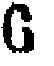6
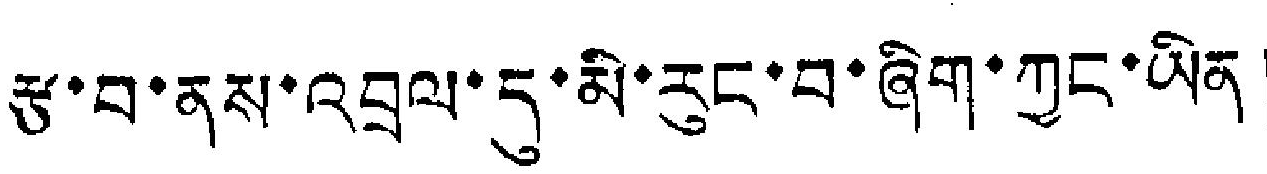རྩ་བ་ནས་འབྲལ་དུ་མི་རུང་བ་ཞིག་ཀྱང་ཡིན།
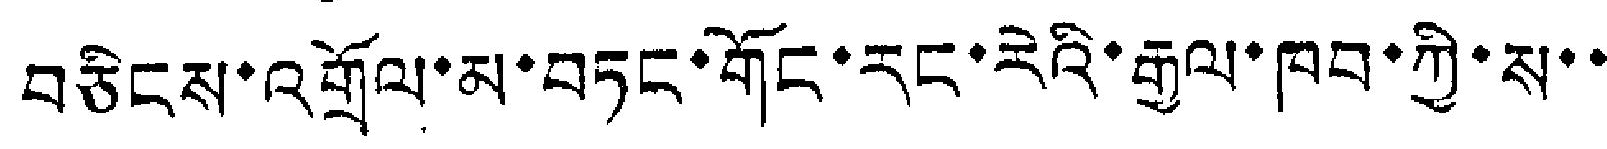བཅིངས་འགྲོལ་མ་བཏང་གོང་རང་རེའི་རྒྱལ་ཁབ་ཀྱི་ས་་
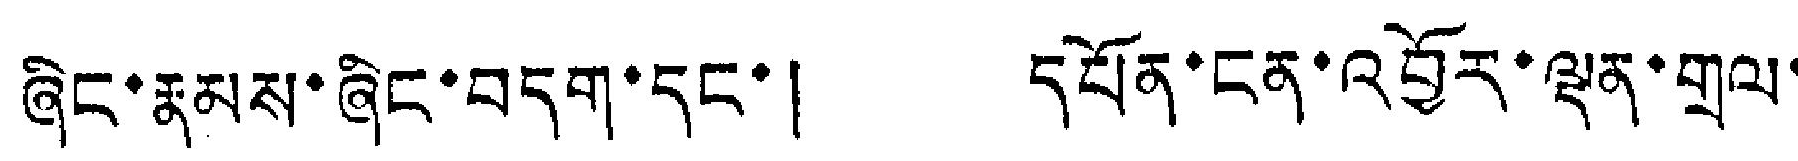ཞིང་རྣམས་ཞིང་བདག་དང་། དཔོན་ངན་འབྱོར་ལྡན་གྲལ་
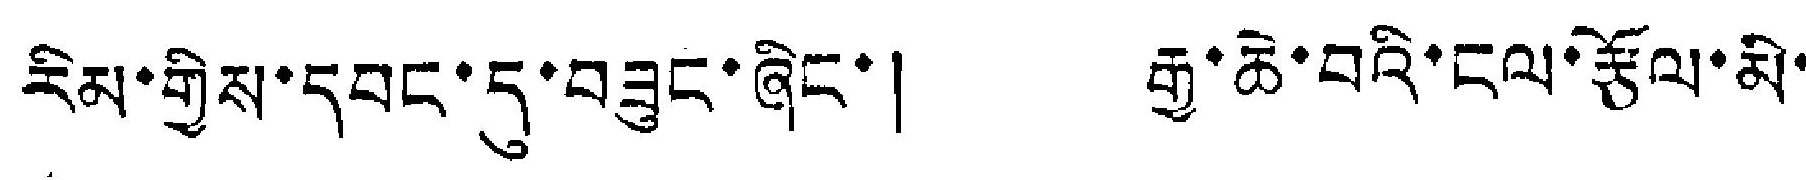རིམ་གྱིས་དབང་དུ་བཟུང་ཞིང་། རྒྱ་ཆེ་བའི་ངལ་རྩོལ་མི་
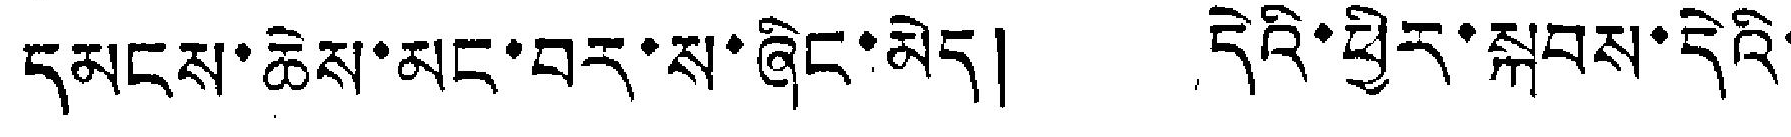དམངས་ཆེས་མང་བར་ས་ཞིང་མེད། དེའི་ཕྱིར་སྐབས་དེའི་
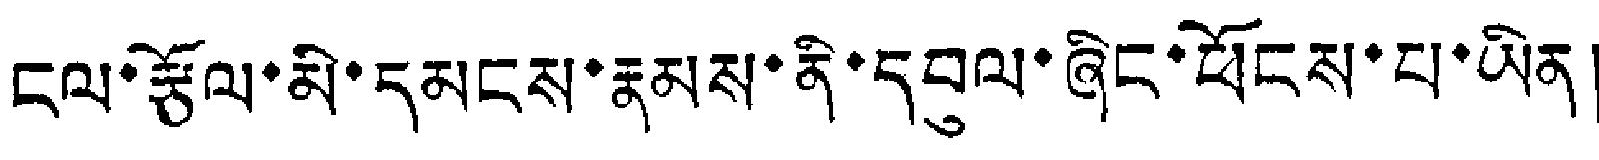ངལ་རྩོལ་མི་དམངས་རྣམས་ནི་དབུལ་ཞིང་ཕོངས་པ་ཡིན།
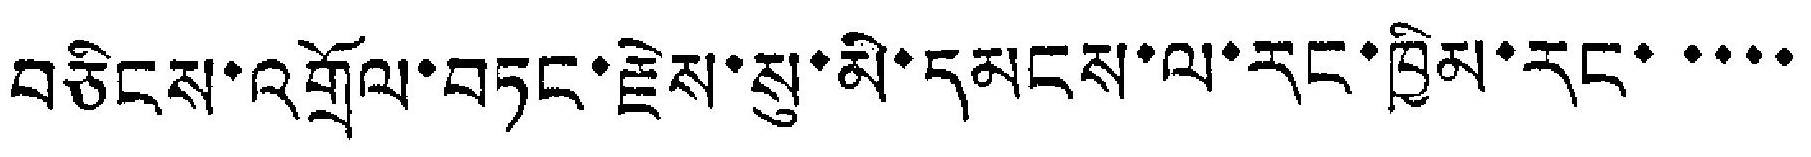བཅིངས་འགྲོལ་བཏང་རྗེས་སུ་མི་དམངས་ལ་རང་ཁྱིམ་རང་་་་་
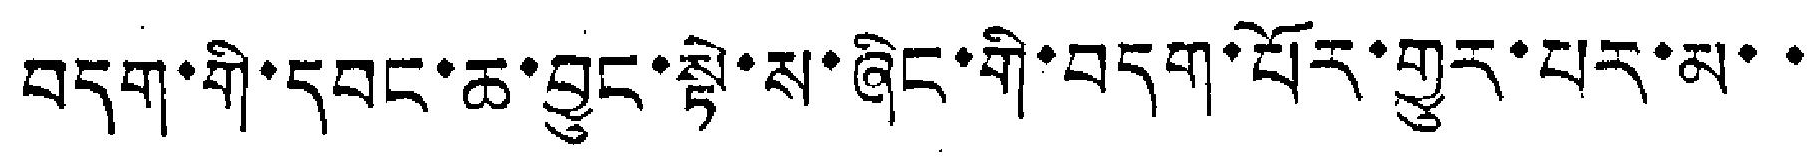བདག་གི་དབང་ཆ་བྱུང་སྟེ་ས་ཞིང་གི་བདག་པོར་གྱུར་པར་མ་་
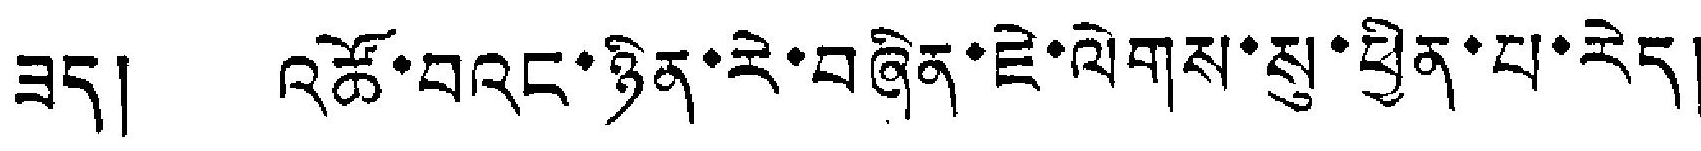ཟད། འཚོ་བའང་ཉིན་རེ་བཞིན་ཇེ་ལེགས་སུ་ཕྱིན་པ་རེད།
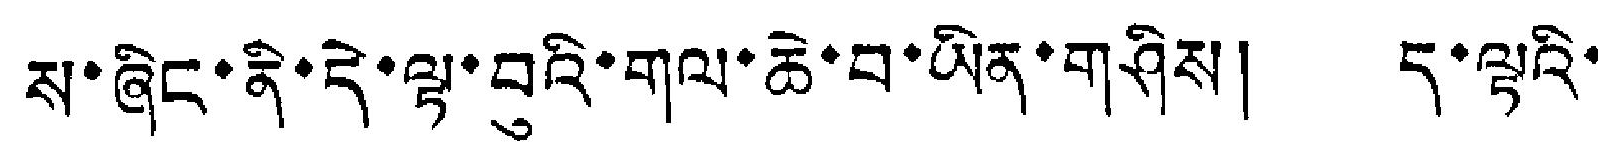ས་ཞིང་ནི་དེ་ལྟ་བུའི་གལ་ཆེ་བ་ཡིན་གཤིས། ད་ལྟའི་
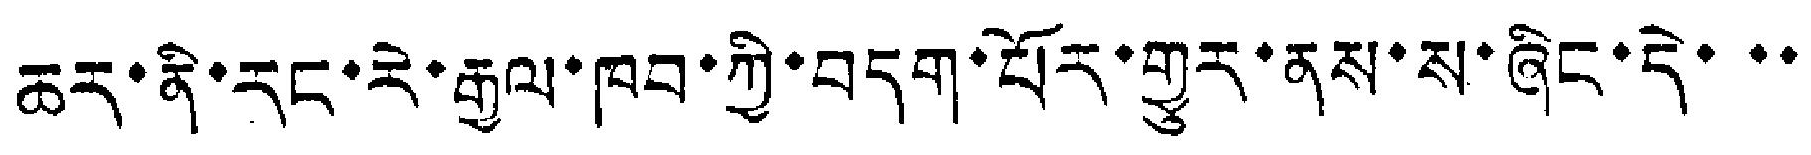ཆར་ནི་རང་རེ་རྒྱལ་ཁབ་ཀྱི་བདག་པོར་གྱུར་ནས་ས་ཞིང་དེ་་་
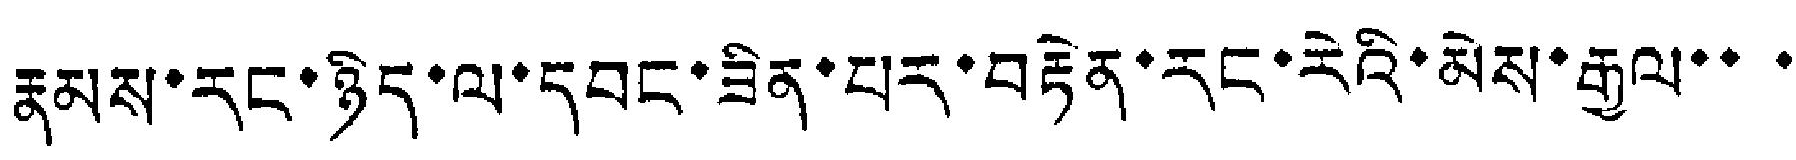རྣམས་རང་ཉིད་ལ་དབང་ཟིན་པར་བརྟེན་རང་རེའི་མེས་རྒྱལ་་་་
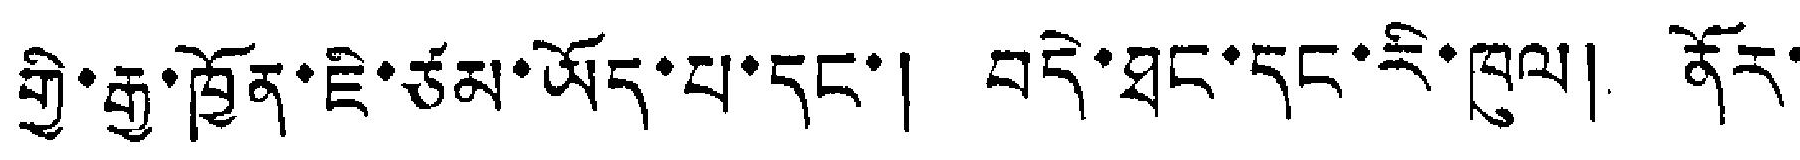གྱི་རྒྱ་ཁྱོན་ཇི་ཙམ་ཡོད་པ་དང་། བདེ་ཐང་དང་རི་ཁུལ། ནོར་
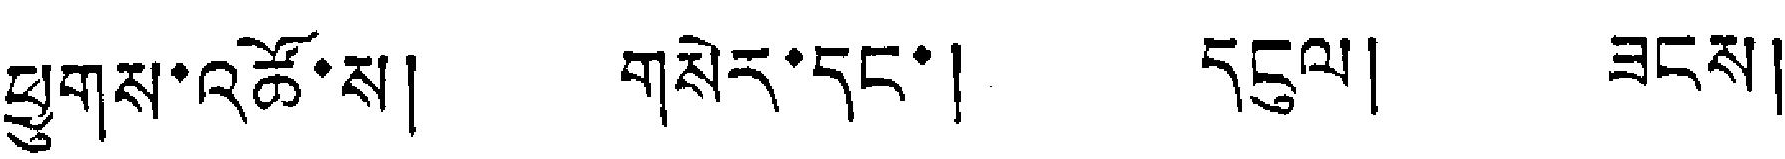ཕྱགས་འཚོ་ས། གསེར་དང་། དངུལ། ཟངས།
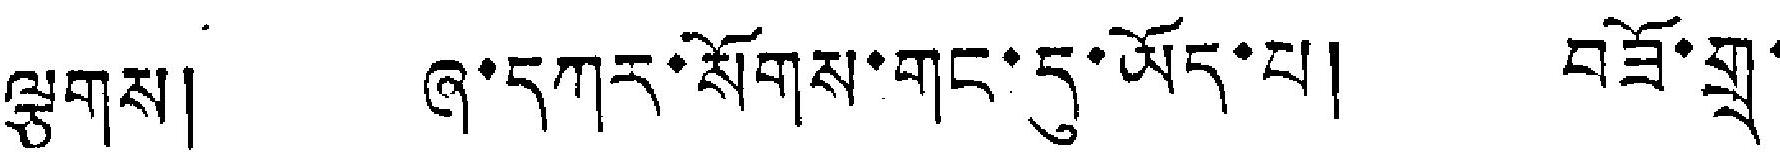ལྕགས། ཞ་དཀར་སོགས་གང་དུ་ཡོད་པ། བཟོ་གྲྭ་
